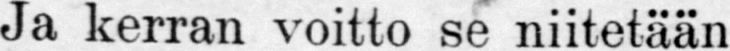ja kerran voitto se niitetään
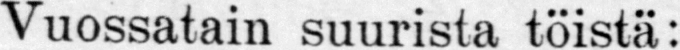Vuossatain suurista töistä:
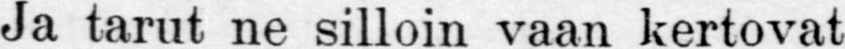ja tarut ne silloin vaan kertovat
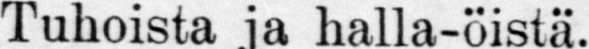Tuhoista ja halla-öistä.
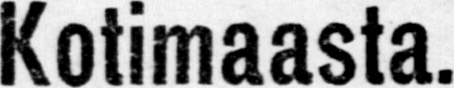Kotimaasta.
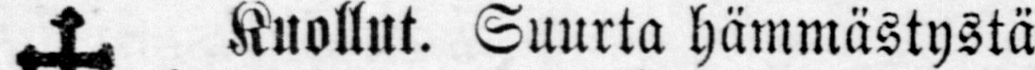† Kuollut. Suurta hämmästystä
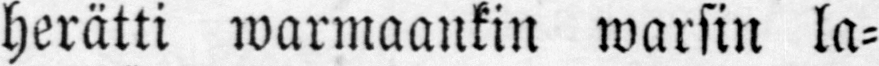herätti warmaankin warsin la-
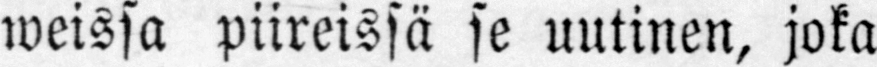weissa piireissä se uutinen, joka
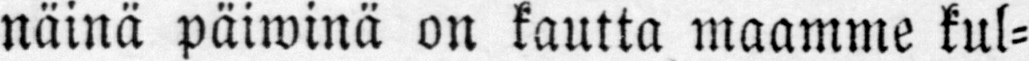näinä päiwinä on kautta maamme kul-
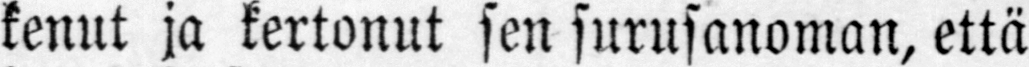kenut ja kertonut sen surusanoman, että
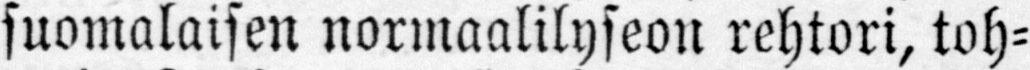suomalaisen normaalilyseon rehtori, toh-
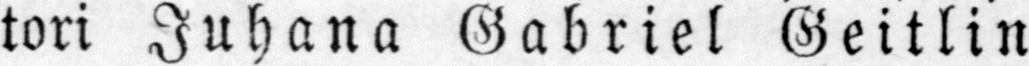tori Juhana Gabriel Geitlin
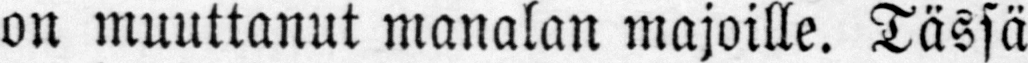on muuttanut manalan majoille. Tässä
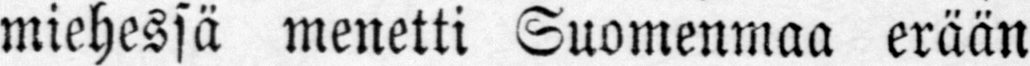miehessä menetti Suomenmaa erään
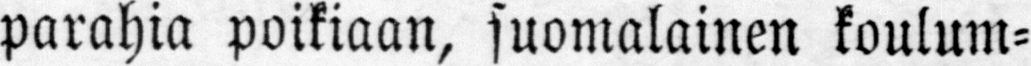parahin poikiaan, suomalainen koulum-
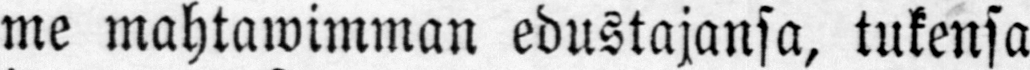me mahtawimman edustajansa, tukensa
